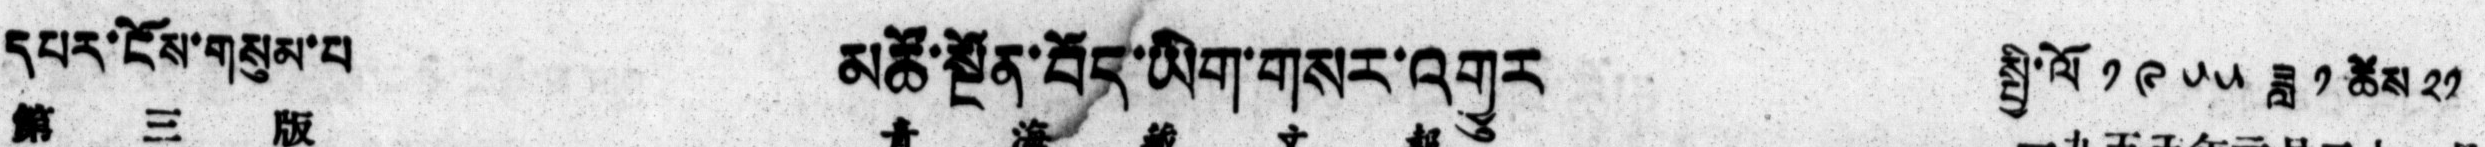དཔར་ངོས་གསུམ་པ།   མཚོ་སྔོན་བོད་ཡིག་གསར་འགྱུར   སྤྱི་ལོ ༡༩༥༥ ཟླ ༡ ཚེས ༢༡
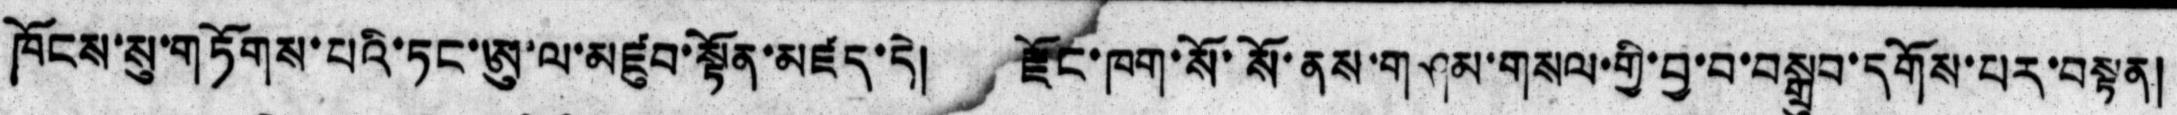ཁོངས་སུ་གཏོགས་པའི་ཏང་ཨུ་ལ་མཛུབ་སྟོན་མཛད་དེ། རྫོང་ཁག་སོ་སོ་ནས་གཤམ་གསལ་གྱི་བྱ་བ་བསྒྲུབ་དགོས་པར་བསྟན།
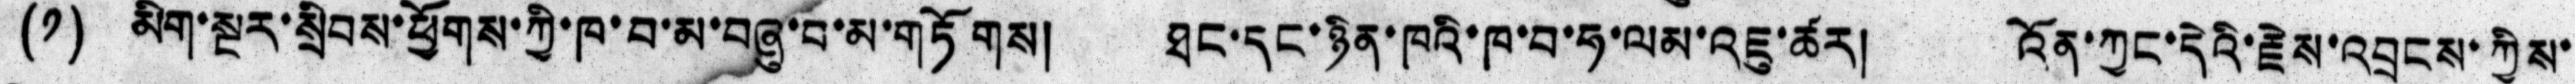(༡) མིག་སྔར་སྲིབས་ཕྱོགས་ཀྱི་ཁ་བ་མ་བཞུ་བ་མ་གཏོགས། ཐང་དང་ཉིན་ཁའི་ཁ་བ་ཧ་ལམ་འཇུ་ཚར། འོན་ཀྱང་དེའི་རྗེས་འབྲངས་ཀྱིས་
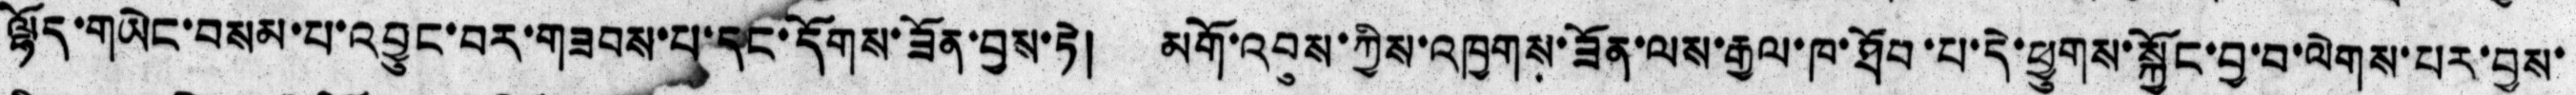ལྷོད་གཡེང་བསམ་པ་འབྱུང་བར་གཟབས་པ་དང་དོགས་ཟོན་བྱས་ཏེ། མགོ་འབུས་ཀྱིས་འཁྱགས་ཟོན་ལས་རྒྱལ་ཁ་ཐོབ་པ་དེ་ཕྱུགས་སྐྱོང་བྱ་བ་ལེགས་པར་བྱས་
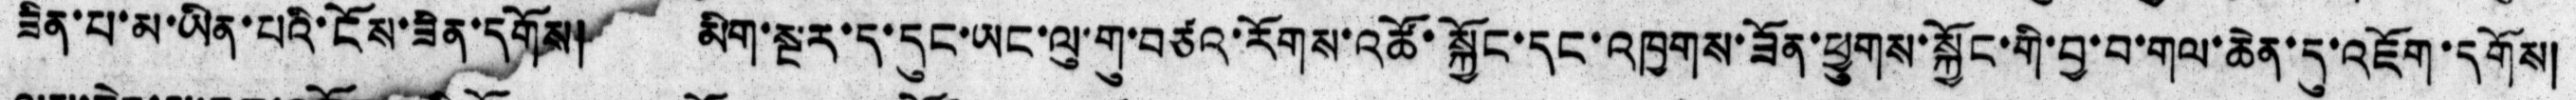ཟིན་པ་མ་ཡིན་པའི་ངོས་ཟིན་དགོས། མིག་སྔར་ད་དུང་ཡང་ལུ་གུ་བཙའ་རོགས་འཚོ་སྐྱོང་དང་འཁྱགས་ཟོན་ཕྱུགས་སྐྱོང་གི་བྱ་བ་གལ་ཆེན་དུ་འཇོག་དགོས།
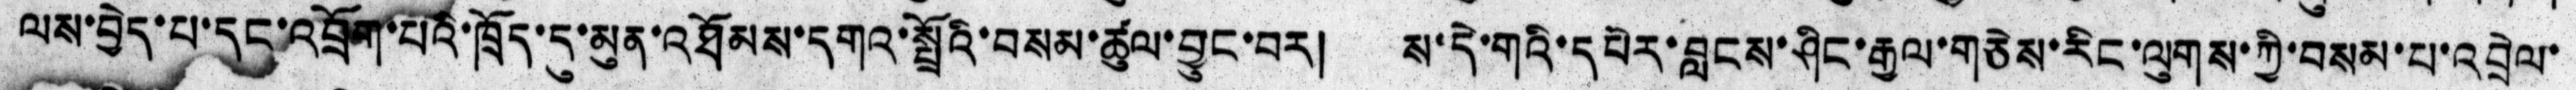ལས་བྱེད་པ་དང་འབྲོག་པའི་ཁྲོད་དུ་མུན་འཐོམས་དགའ་སྤྲོའི་བསམ་ཚུལ་བྱུང་བར། ས་དེ་གའི་དཔེར་བླངས་ཤིང་རྒྱལ་གཅེས་རིང་ལུགས་ཀྱི་བསམ་པ་འབྲེལ་
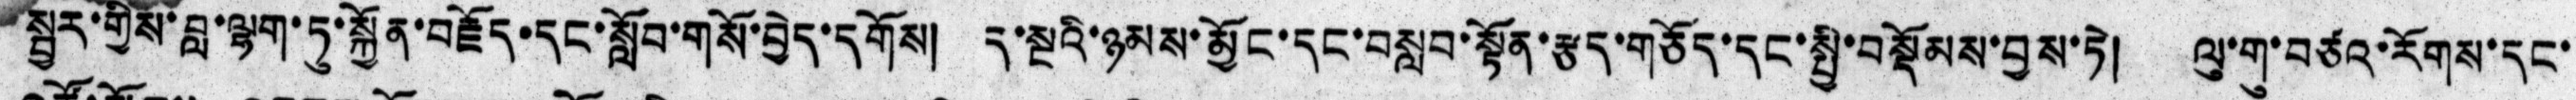སྦྱར་གྱིས་བླ་ལྷག་ཏུ་སྐྱོན་བརྗོད་དང་སློབ་གསོ་བྱེད་དགོས། ད་སྔའི་ཉམས་མྱོང་དང་བསླབ་སྟོན་རྩད་གཅོད་དང་སྤྱི་བསྡོམས་བྱས་ཏེ། ལུ་གུ་བཙའ་རོགས་དང་
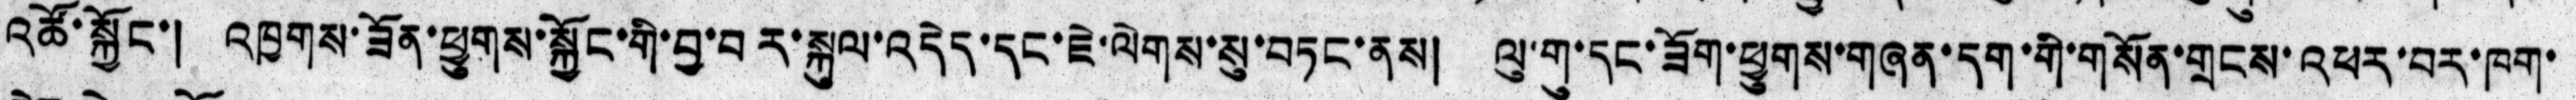འཚོ་སྐྱོང་། འཁྱགས་ཟོན་ཕྱུགས་སྐྱོང་གི་བྱ་བར་སྐུལ་འདེད་དང་ཇེ་ལེགས་སུ་བཏང་ནས། ལུ་གུ་དང་ཟོག་ཕྱུགས་གཞན་དག་གི་གསོན་གྲངས་འཕར་བར་ཁག་
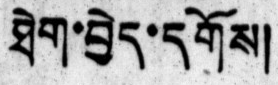ཐེག་བྱེད་དགོས།
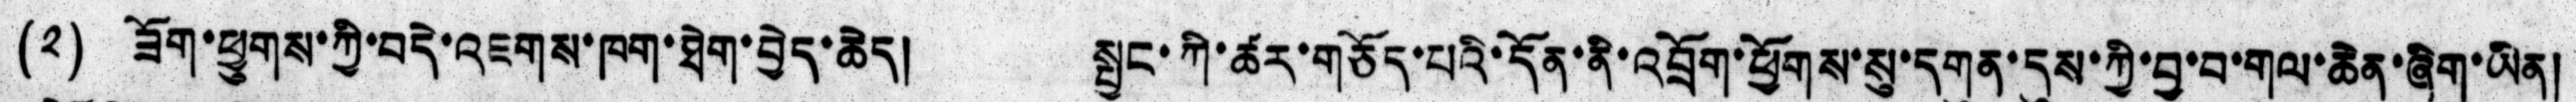(༢) ཟོག་ཕྱུགས་ཀྱི་བདེ་འཇགས་ཁག་ཐེག་བྱེད་ཆེད། སྤྱང་ཀི་ཚར་གཅོད་པའི་དོན་ནི་འབྲོག་ཕྱོགས་སུ་དགུན་དུས་ཀྱི་བྱ་བ་གལ་ཆེན་ཞིག་ཡིན།
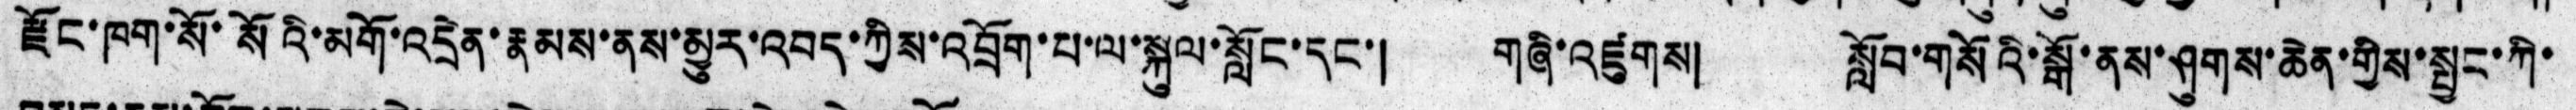ཁག་སོ་སོའི་མགོ་འདྲེན་རྣམས་ནས་མྱུར་འབད་ཀྱིས་འབྲོག་པ་ལ་སྐུལ་སློང་དང་། གཞི་འཛུགས། སློབ་གསོའི་སྒོ་ནས་ཤུགས་ཆེན་གྱིས་སྤྱང་ཀི་
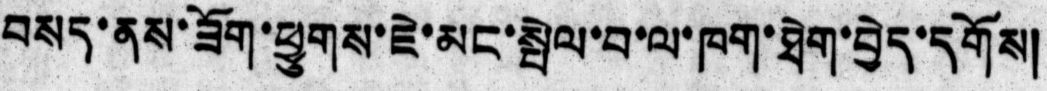བསད་ནས་ཟོག་ཕྱུགས་ཇེ་མང་སྤེལ་བ་ལ་ཁག་ཐེག་བྱེད་དགོས།
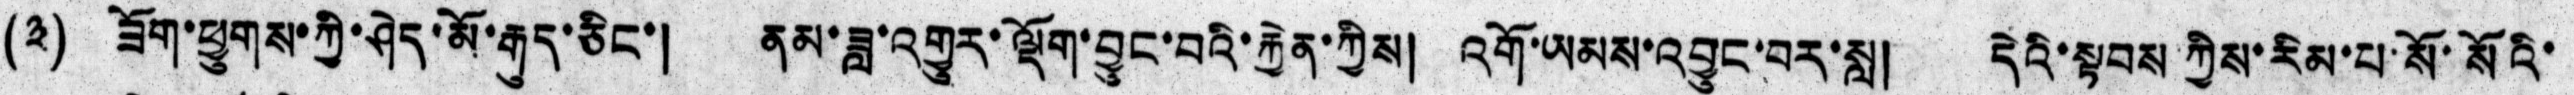(༣) ཟོག་ཕྱུགས་ཀྱི་ཤེད་མོ་རྒུད་ཅིང་། ནམ་ཟླ་འགྱུར་ལྡོག་བྱུང་བའི་རྐྱེན་ཀྱིས། འགོ་ཡམས་འབྱུང་བར་སླ། དེའི་སྟབས ཀྱིས་རིམ་པ་སོ་སོའི་
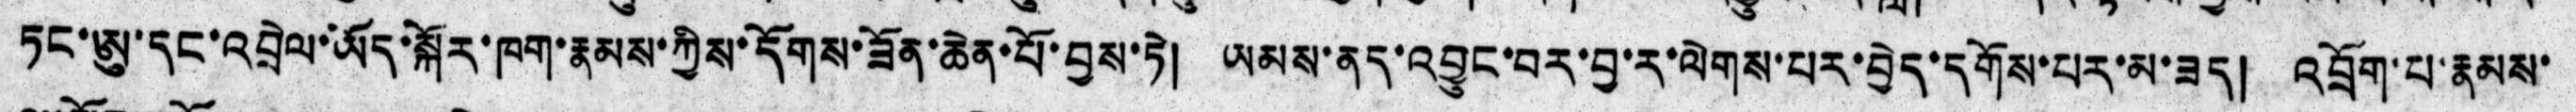ཏང་ཨུ་དང་འབྲེལ་ཡོད་སྐོར་ཁག་རྣམས་ཀྱིས་དོགས་ཟོན་ཆེན་པོ་བྱས་ཏེ། ཡམས་ནད་འབྱུང་བར་བྱ་ར་ལེགས་པར་བྱེད་དགོས་པར་མ་ཟད། འབྲོག་པ་རྣམས་
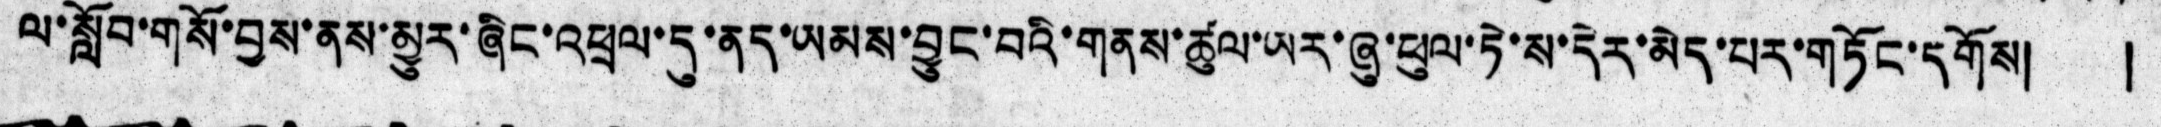ལ་སློབ་གསོ་བྱས་ནས་མྱུར་ཞིང་འཕྲལ་དུ་ནད་ཡམས་བྱུང་བའི་གནས་ཚུལ་ཡར་ཞུ་ཕུལ་ཏེ་ས་དེར་མེད་པར་གཏོང་དགོས། །
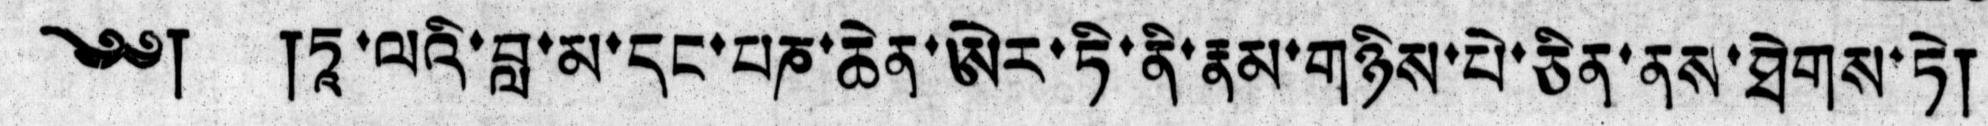༄༅། །ཏཱ་ལའི་བླ་མ་དང་པཎ་ཆེན་ཨེར་ཏི་ནི་རྣམ་གཉིས་པེ་ཅིན་ནས་ཐེགས་ཏེ།
